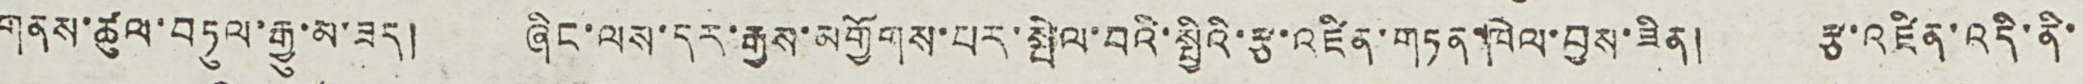གནས་ཚུལ་བཏུལ་རྒྱུ་མ་ཟད། ཞིང་ལས་དར་རྒྱས་མགྱོགས་པར་སྤེལ་བའི་སྤྱིའི་རྩ་འཛིན་གཏན་ཁེལ་བྱས་ཟིན། རྟ་འཛིན་འདི་ནི་
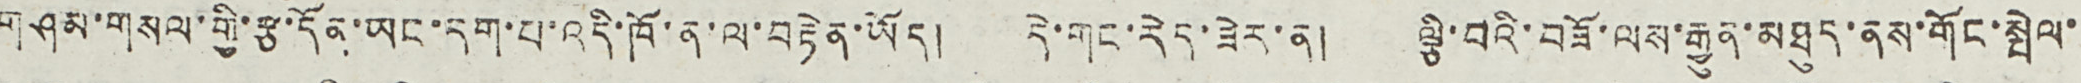གཤམ་གསལ་གྱི་རྩ་དོན་ཡང་དག་པ་འདི་ཁོ་ན་ལ་བརྟེན་ཡོད། དེ་གང་རེད་ཟེར་ན། ལྕི་བའི་བཟོ་ལས་རྒྱུན་མཐུད་ནས་གོང་སྤེལ་
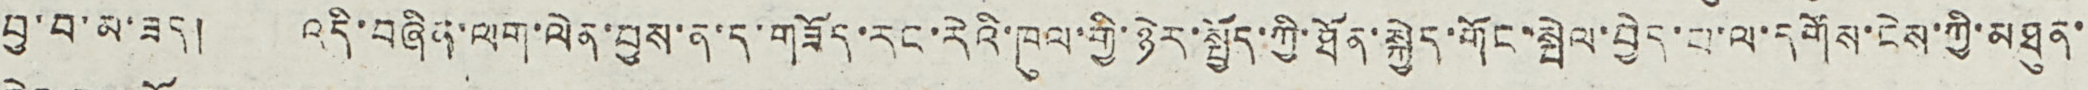བྱ་བ་མ་ཟད། འདི་བཞིན་ལག་ལེན་བྱས་ན་ད་གཟོད་རང་རེའི་ཁུལ་གྱི་ཉེར་སྤྱོད་ཀྱི་ཐོན་སྐྱེད་གོང་སྤེལ་བྱེད་པ་ལ་དགོས་ངེས་ཀྱི་མཐུན་
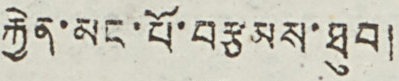རྐྱེན་མང་པོ་བརྩམས་ཐུབ།
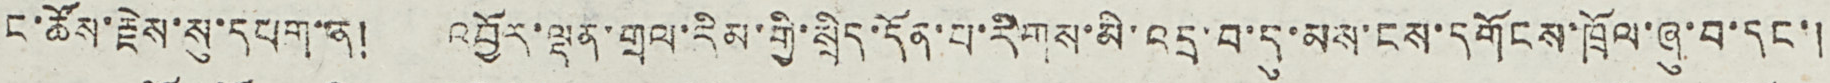ང་ཚོས་རྗེས་སུ་དཔག་ན། འབྱོར་ལྡན་གྲལ་རིམ་གྱི་སྲིད་དོན་པ་རིགས་མི་འདྲ་བ་དུ་མས་ངས་དགོངས་ཁྲོལ་ཞུ་བ་དང་།
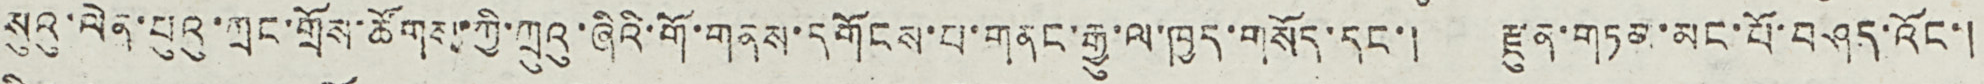སུའུ་ལེན་པུའུ་ཀྲང་གྲོས་ཚོགས་ཀྱི་ཀྲུའུ་ཞིའི་གོ་གནས་དགོངས་པ་གནང་རྒྱུ་ལ་ཁྱད་གསོད་དང་། རྫུན་གཏམ་མང་པོ་བཤད་འོང་།
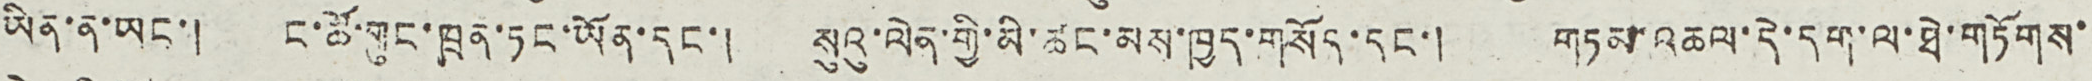ཡིན་ན་ཡང་། ང་ཚོ་གུང་ཁྲན་ཏང་ཡོན་དང་། སུའུ་ལེན་གྱི་མི་ཚང་མས་ཁྱད་གསོད་དང་། གཏམ་འཆལ་དེ་དག་ལ་ཐེ་གཏོགས་
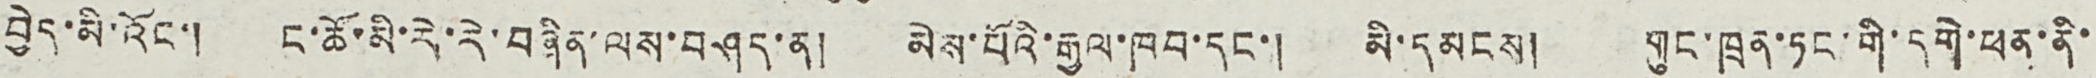བྱེད་མི་འོང་། ང་ཚོ་མི་རེ་རེ་བཞིན་ལས་བཤད་ན། མེས་པོའི་རྒྱལ་ཁབ་དང་། མི་དམངས། གུང་ཁྲན་ཏང་གི་དགེ་ཕན་ནི་
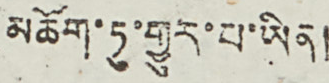མཆོག་ཏུ་གྱུར་པ་ཡིན།
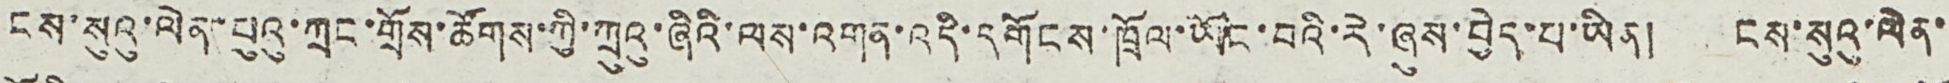ངས་སུའུ་ལེན་པུའུ་ཀྲང་གྲོས་ཚོགས་ཀྱི་ཀྲུའུ་ཞིའི་ལས་འགན་འདི་དགོངས་ཁྲོལ་ཡོང་བའི་རེ་ཞུས་བྱེད་པ་ཡིན། ངས་སུའུ་ལེན་
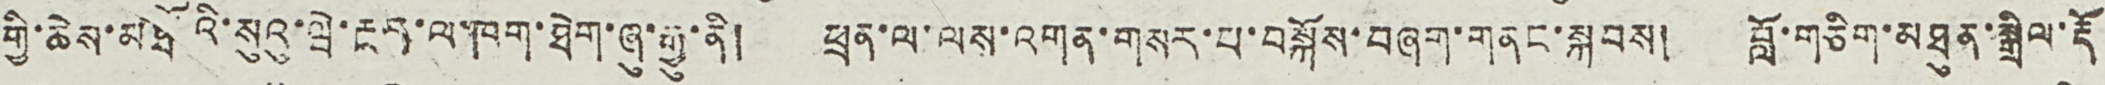གྱི་ཆེས་མཐོའི་སུའུ་ཝེ་རྔད་ལ་ཁག་ཐེག་ཞུ་རྒྱུ་ནི། ཕྲན་ལ་ལས་འགན་གསར་པ་བསྐོས་བཞག་གནང་སྐབས། བློ་གཅིག་མཐུན་སྒྲིལ་རྡོ
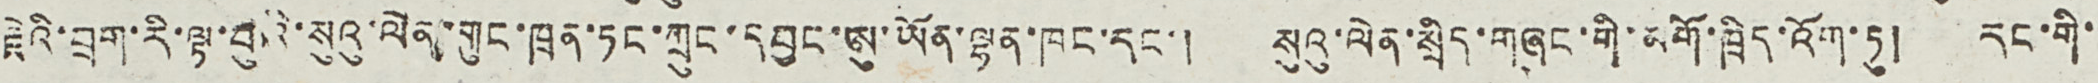རྗེའི་བྲག་རི་ལྟ་བུའི་སུའུ་ལེན་གུང་ཁྲན་ཏང་ཀྲུང་དབྱང་ཨུ་ཡོན་ལྷན་ཁང་དང་། སུའུ་ལེན་སྲིད་གཞུང་གི་མགོ་ཁྲིད་འོག་ཏུ། རང་གི་
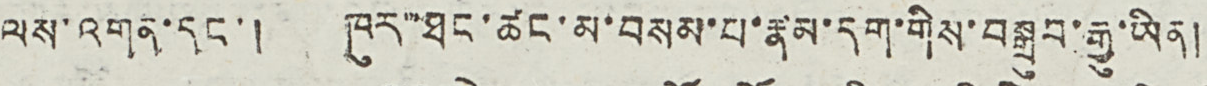ལས་འགན་དང་། ཁུར་ཐང་ཚང་མ་བསམ་པ་རྣམ་དག་གིས་བསྒྲུབ་རྒྱུ་ཡིན།
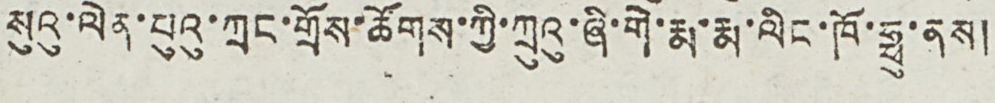སུའུ་ལེན་པུའུ་ཀྲང་གྲོས་ཚོགས་ཀྱི་ཀྲུའུ་ཞི་གེ་རྨ་རྨ་ལིང་ཁོ་ཧྥུ་ནས།
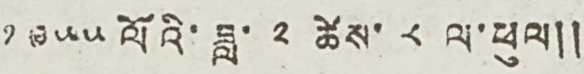༡༩༥༥ ལོའི་ཟླ་ ༢ ཚེས་ ༨ ལ་ཕུལ༎
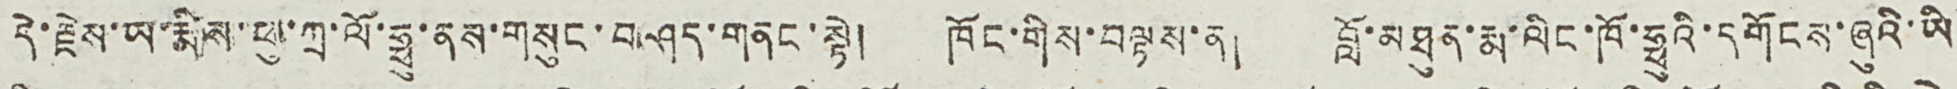དེ་རྗེས་ཡ་རྨོས་ཕུ་ཀྲ་ལོ་ཧྥུ་ནས་གསུང་བཤད་གནང་སྟེ། ཁོང་གིས་བལྟས་ན། བློ་མཐུན་རྨ་ལིང་ཁོ་ཧྥུའི་དགོངས་ཞུའི་ཡི
